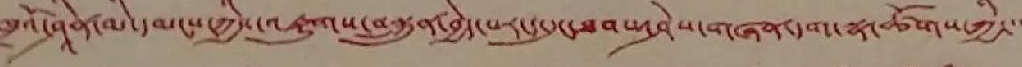ཁྲའོ་ཤཱིན་མི་དམངས་ཀྱིས་འཛུགས་བསྐྲུན་བྱེད་པར་ད་དུང་ཐབས་ཤེས་གཞན་དག་སྣ་ཚོགས་ཀྱི་་་་
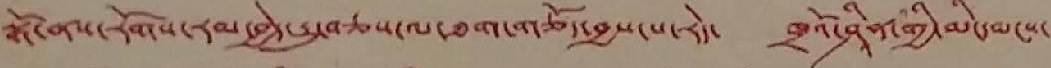སྒོ་ནས་རོགས་རམ་བྱེད་རྒྱུ་བཅས་ལ་ཐག་གཅོད་བྱས་པ་རེད་ ཁྲའོ་ཤཱིན་གྱི་མི་དམངས་
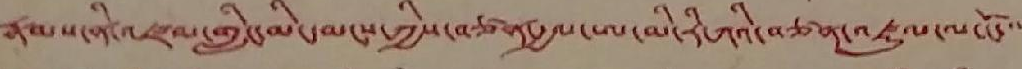རྣམས་ནི་འཛམ་གླིང་མི་དམངས་ཀྱིས་བཙན་རྒྱལ་ཨ་མི་རི་ཀའི་བཙན་འཛུལ་ལ་ངོ་་་་
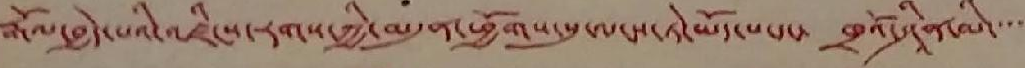རྒོལ་བྱེད་པའི་འཛིངས་རགས་ཀྱི་མདུན་ཕྱོགས་སུ་ལངས་ཏེ་ཡོད་པ་དང་ ཁྲའོ་ཤཱིན་མི་་་་་
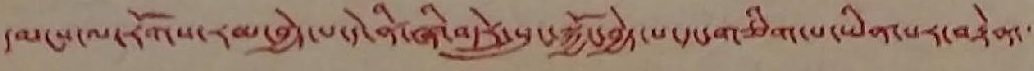དམངས་ལ་རོགས་རམ་བྱེད་པ་ནི་ཞི་བདེར་སྲུང་སྐྱོང་བྱེད་པ་དང་གཅིག་པ་ཡིན་པར་བརྟེན་་་
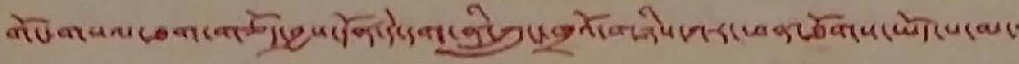གོང་གསལ་ཐག་གཅོད་བྱས་དོན་དེ་དག་ནི་ཀྲུང་ཁྲའོ་གཉིས་ཀར་ཕན་ཐོགས་ཡོད་པ་མ་
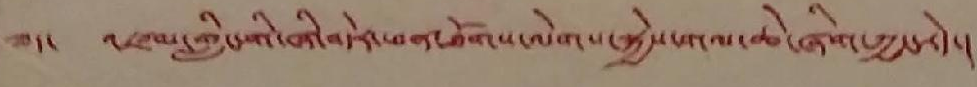ཟད་ འཛམ་གླིང་གི་ཞི་བདེར་ཕན་ཐོགས་ལེགས་སྐྱེས་གལ་ཆེ་ཞིག་ཀྱང་རེད་།
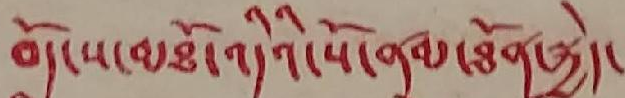བོད་ས་མཐོ་འདིའི་སོ་ནམ་ཐོན་སྐྱེད་
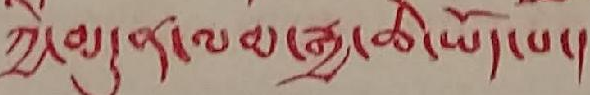ཀྱི་མདུན་ལམ་རྒྱ་ཆེ་ཡོད་པ་།
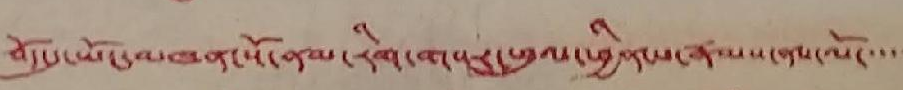བོད་དུ་ཡོང་མཁན་སོ་ནམ་རིག་གསར་ཕུལ་ཕྱིན་པ་རྣམས་ནས་ལོ་་་་་
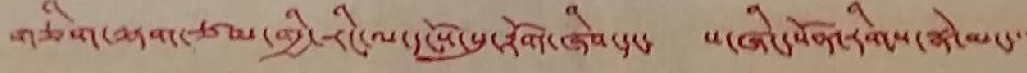གཅིག་ལྷག་ཙམ་གྱི་རིང་ལ་དངོས་སུ་རྟོག་ཞིབ་དང་་ས་ཞིང་སོན་རིགས་སྣེ་མང་་་
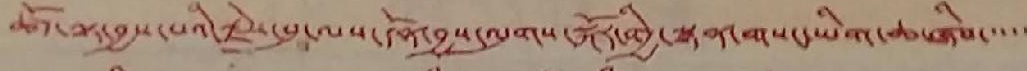ཚོད་ལྟ་བྱས་པའི་རྗེས་སུ་ལས་དོན་བྱས་ལུགས་སྐོར་གྱི་སྙན་གསང་ཡིག་ཆ་ཞིབ་་་་་
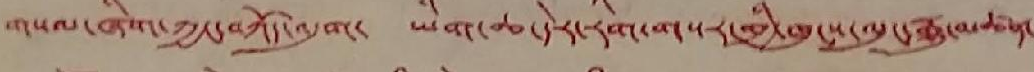གསལ་ཞིག་ཀྱང་བཀོད་འདུག་ ཡིག་ཆ་དེར་རིགས་གསར་གྱི་ཁུངས་ལུང་རྒྱུ་མཚན་
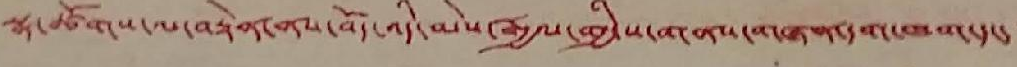སྣ་ཚོགས་ལ་བརྟེན་ནས་བོད་འདི་མེས་རྒྱལ་གྱི་ས་གནས་གཞན་དག་ཁག་དང་་་
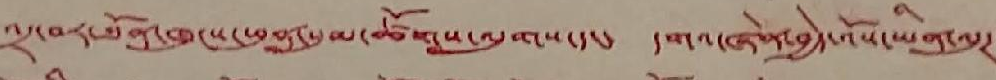འདྲ་བར་ཐོན་ཁུངས་ཕུན་སུམ་ཚོགས་ལུགས་དང་ དགའ་ཞེན་བྱེད་འོས་ཡིན་ལུཊ་
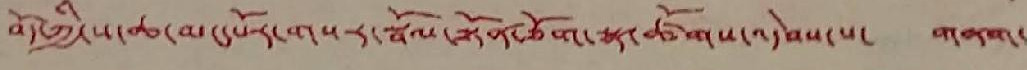བོད་ཀྱི་ས་ཆ་མང་པོར་གསར་སྦོལ་སྟོན་ཐོག་སྣ་ཚོགས་འདེབས་པ་ གནག་
